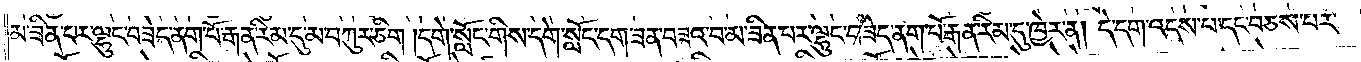མ་ཟིན་པར་ལྷུང་བཟེད་ནག་པོ་རྒན་རིམ་དུ་མ་བཀུར་ཅིག །དགེ་སློང་གིས་དགེ་སློང་དག་ཟན་བཟའ་བ་མ་ཟིན་པར་ལྷུང་བཟེད་ནག་པོ་རྒན་རིམ་དུ་ཁྱེར་ན། དེ་དག་འདས་པ་དང་བཅས་པར་
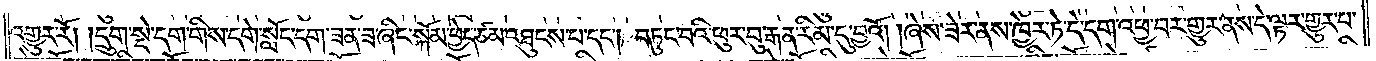འགྱུར་རོ། །དྲུག་སྡེ་དག་གིས་དགེ་སློང་དག་ཟན་ཟ་ཞིང་སྐོམ་ཕྱེད་ཙམ་འཐུངས་པ་དང༌། བཏུང་བའི་ཕུར་བུ་རྒན་རིམ་དུ་བྱའོ། །ཞེས་ཟེར་ནས་ཁྱེར་ཏེ་དེ་དག་འཕྱ་བར་གྱུར་ནས་དེ་ལྟར་གྱུར་པ་
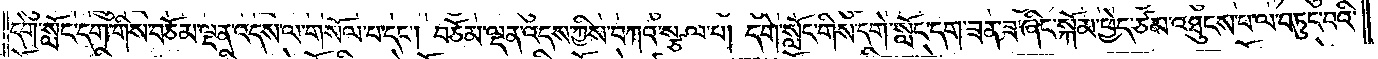དགེ་སློང་དག་གིས་བཅོམ་ལྡན་འདས་ལ་གསོལ་པ་དང༌། བཅོམ་ལྡན་འདས་ཀྱིས་བཀའ་སྩལ་པ། དགེ་སློང་གིས་དགེ་སློང་དག་ཟན་ཟ་ཞིང་སྐོམ་ཕྱེད་ཙམ་འཐུངས་པ་ལ་བཏུང་བའི་
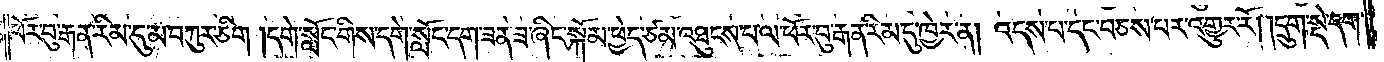ཕོར་བུ་རྒན་རིམ་དུ་མ་བཀུར་ཅིག །དགེ་སློང་གིས་དགེ་སློང་དག་ཟན་ཟ་ཞིང་སྐོམ་ཕྱེད་ཙམ་འཐུངས་པ་ལ་ཕོར་བུ་རྒན་རིམ་དུ་ཁྱེར་ན། འདས་པ་དང་བཅས་པར་འགྱུར་རོ། །དྲུག་སྡེ་དག་
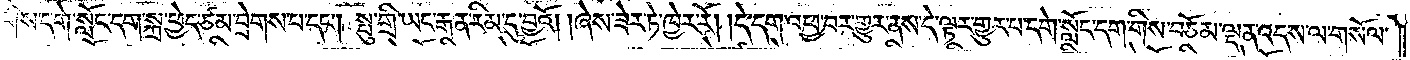གིས་དགེ་སློང་དག་སྐྲ་ཕྱེད་ཙམ་བྲེགས་པ་དང༌། སྤུ་གྲི་ཡང་རྒན་རིམ་དུ་བྱའོ། །ཞེས་ཟེར་ཏེ་ཁྱེར་རོ། །དེ་དག་འཕྱ་བར་གྱུར་ནས་དེ་ལྟར་གྱུར་པ་དགེ་སློང་དག་གིས་བཅོམ་ལྡན་འདས་ལ་གསོལ་
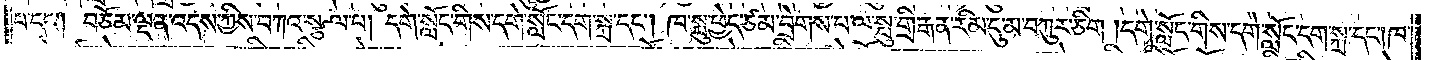པ་དང༌། བཅོམ་ལྡན་འདས་ཀྱིས་བཀའ་སྩལ་པ། དགེ་སློང་གིས་དགེ་སློང་དག་སྐྲ་དང༌། ཁ་སྤུ་ཕྱེད་ཙམ་བྲེགས་པ་ལ་སྤུ་གྲི་རྒན་རིམ་དུ་མ་བཀུར་ཅིག །དགེ་སློང་གིས་དགེ་སློང་དག་སྐྲ་དང༌། ཁ་
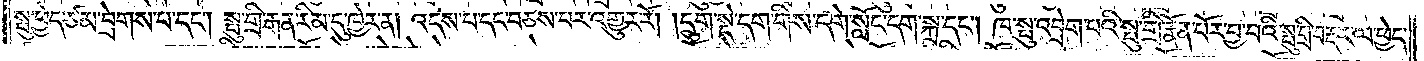སྤུ་ཕྱེད་ཙམ་བྲེགས་པ་དང༌། སྤུ་གྲི་རྒན་རིམ་དུ་ཁྱེར་ན། འདས་པ་དང་བཅས་པར་འགྱུར་རོ། །དྲུག་སྡེ་དག་གིས་དགེ་སློང་དག་སྐྲ་དང༌། ཁ་སྤུ་འབྲེག་པའི་སྤུ་གྲི་རྣོན་པོར་བྱ་བའི་སྤུ་གྲི་བརྡར་ལ་ཕྱེད་
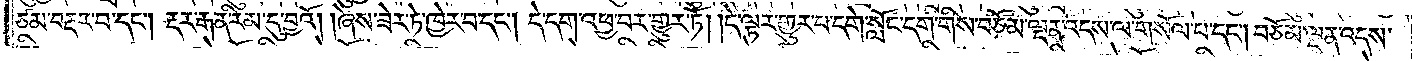ཙམ་བརྡར་བ་དང༌། རྡར་རྒན་རིམ་དུ་བྱའོ། །ཞེས་ཟེར་ཏེ་ཁྱེར་བ་དང༌། དེ་དག་འཕྱ་བར་གྱུར་ཏོ། །དེ་ལྟར་གྱུར་པ་དགེ་སློང་དག་གིས་བཅོམ་ལྡན་འདས་ལ་གསོལ་པ་དང༌། བཅོམ་ལྡན་འདས་
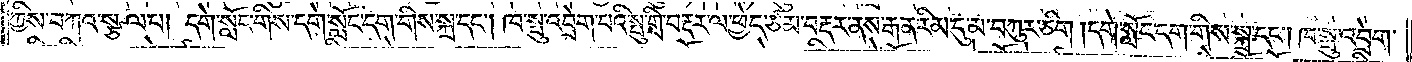ཀྱིས་བཀའ་སྩལ་པ། དགེ་སློང་གིས་དགེ་སློང་དག་གིས་སྐྲ་དང༌། ཁ་སྤུ་འབྲེག་པའི་སྤུ་གྲི་བརྡར་ལ་ཕྱེད་ཙམ་བརྡར་ནས་རྒན་རིམ་དུ་མ་བཀུར་ཅིག །དགེ་སློང་དག་གིས་སྐྲ་དང༌། ཁ་སྤུ་འབྲེག་
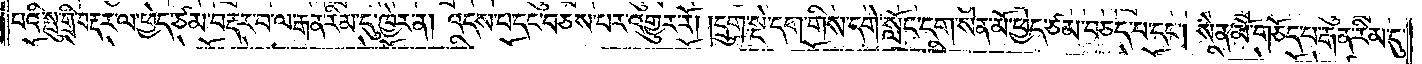པའི་སྤུ་གྲི་བརྡར་ལ་ཕྱེད་ཙམ་བརྡར་བ་ལ་རྒན་རིམ་དུ་ཁྱེར་ན། འདས་པ་དང་བཅས་པར་འགྱུར་རོ། །དྲུག་སྡེ་དག་གིས་དགེ་སློང་དག་སེན་མོ་ཕྱེད་ཙམ་བཅད་པ་དང༌། སེན་མོ་གཅོད་པ་རྒན་རིམ་དུ་
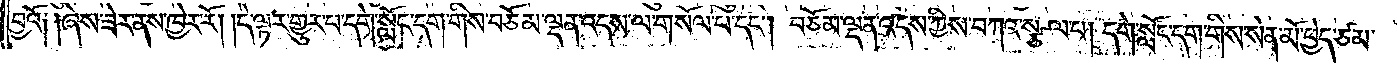བྱའོ༑ ༑ཞེས་ཟེར་ནས་ཁྱེར་རོ། །དེ་ལྟར་གྱུར་པ་དགེ་སློང་དག་གིས་བཅོམ་ལྡན་འདས་ལ་གསོལ་པ་དང༌། བཅོམ་ལྡན་འདས་ཀྱིས་བཀའ་སྩལ་པ། དགེ་སློང་དག་གིས་སེན་མོ་ཕྱེད་ཙམ་
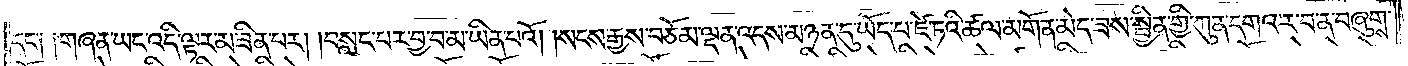དང་༑ ༑གཞན་ཡང་འདི་ལྟར་མ་ཟིན་པར། །བསླང་པར་བྱ་བ་མ་ཡིན་པའོ། །སངས་རྒྱས་བཅོམ་ལྡན་འདས་མཉན་དུ་ཡོད་པ་ཛེ་ཏའི་ཚལ་མགོན་མེད་ཟས་སྦྱིན་གྱི་ཀུན་དགའ་ར་བ་ན་བཞུགས་
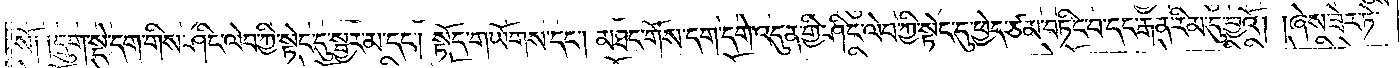སོ༑ ༑དྲུག་སྡེ་དག་གིས་ཤིང་ལེབ་ཀྱི་སྟེང་དུ་སྦྱར་མ་དང༌། སྟོད་གཡོགས་དང༌། མཐང་གོས་དག་དགེ་འདུན་གྱི་ཤིང་ལེབ་ཀྱི་སྟེང་དུ་ཕྱེད་ཙམ་བཏིང་བ་དང་རྒན་རིམ་དུ་བྱའོ། །ཞེས་ཟེར་ཏེ་
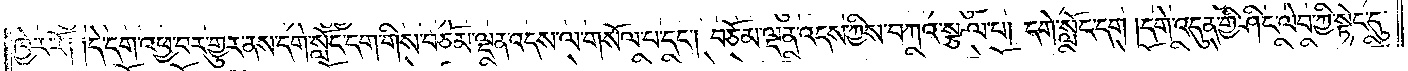ཁྱེར་རོ༑ ༑དེ་དག་འཕྱ་བར་གྱུར་ནས་དགེ་སློང་དག་གིས་བཅོམ་ལྡན་འདས་ལ་གསོལ་པ་དང༌། བཅོམ་ལྡན་འདས་ཀྱིས་བཀའ་སྩལ་པ། དགེ་སློང་དག །དགེ་འདུན་གྱི་ཤིང་ལེབ་ཀྱི་སྟེང་དུ་
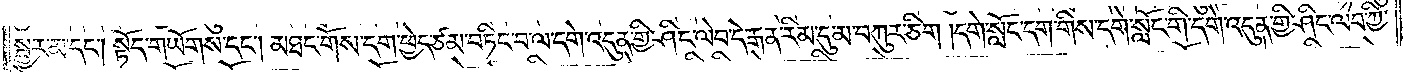སྦྱར་མ་དང༌། སྟོད་གཡོགས་དང༌། མཐང་གོས་དག་ཕྱེད་ཙམ་བཏིང་བ་ལ་དགེ་འདུན་གྱི་ཤིང་ལེབ་དེ་རྒན་རིམ་དུ་མ་བཀུར་ཅིག །དགེ་སློང་དག་གིས་དགེ་སློང་གི་དགེ་འདུན་གྱི་ཤིང་ལེབ་ཀྱི་
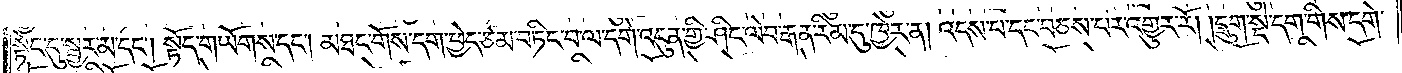སྟེང་དུ་སྦྱར་མ་དང༌། སྟོད་གཡོགས་དང༌། མཐང་གོས་དག་ཕྱེད་ཙམ་བཏིང་བ་ལ་དགེ་འདུན་གྱི་ཤིང་ལེབ་རྒན་རིམ་དུ་ཁྱེར་ན། འདས་པ་དང་བཅས་པར་འགྱུར་རོ། །དྲུག་སྡེ་དག་གིས་དགེ་
